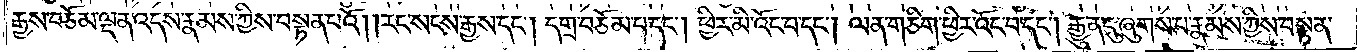རྒྱས་བཅོམ་ལྡན་འདས་རྣམས་ཀྱིས་བསྟན་པའོ། །རང་སངས་རྒྱས་དང༌། དགྲ་བཅོམ་པ་དང༌། ཕྱིར་མི་འོང་བ་དང༌། ལན་གཅིག་ཕྱིར་འོང་བ་དང༌། རྒྱུན་དུ་ཞུགས་པ་རྣམས་ཀྱིས་བསྟན་
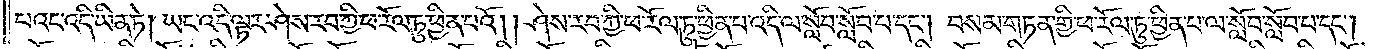པའང་འདི་ཡིན་ཏེ། ཡང་འདི་ལྟར་ཤེས་རབ་ཀྱི་ཕ་རོལ་ཏུ་ཕྱིན་པའོ། །ཤེས་རབ་ཀྱི་ཕ་རོལ་ཏུ་ཕྱིན་པ་འདི་ལ་སློབ་སློབ་པ་དང༌། བསམ་གཏན་གྱི་ཕ་རོལ་ཏུ་ཕྱིན་པ་ལ་སློབ་སློབ་པ་དང༌།
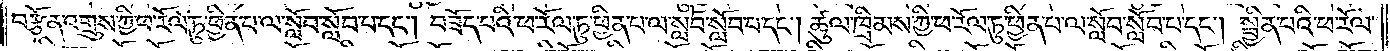བརྩོན་འགྲུས་ཀྱི་ཕ་རོལ་ཏུ་ཕྱིན་པ་ལ་སློབ་སློབ་པ་དང༌། བཟོད་པའི་ཕ་རོལ་ཏུ་ཕྱིན་པ་ལ་སློབ་སློབ་པ་དང༌། ཚུལ་ཁྲིམས་ཀྱི་ཕ་རོལ་ཏུ་ཕྱིན་པ་ལ་སློབ་སློབ་པ་དང༌། སྦྱིན་པའི་ཕ་རོལ་
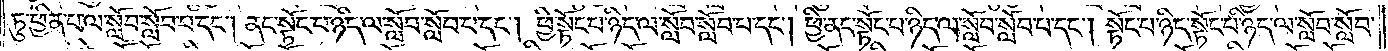ཏུ་ཕྱིན་པ་ལ་སློབ་སློབ་པ་དང༌། ནང་སྟོང་པ་ཉིད་ལ་སློབ་སློབ་པ་དང༌། ཕྱི་སྟོང་པ་ཉིད་ལ་སློབ་སློབ་པ་དང༌། ཕྱི་ནང་སྟོང་པ་ཉིད་ལ་སློབ་སློབ་པ་དང༌། སྟོང་པ་ཉིད་སྟོང་པ་ཉིད་ལ་སློབ་སློབ་
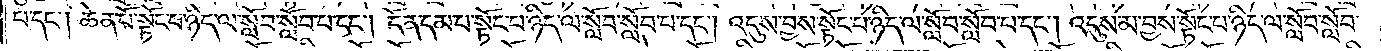པ་དང༌། ཆེན་པོ་སྟོང་པ་ཉིད་ལ་སློབ་སློབ་པ་དང༌། དོན་དམ་པ་སྟོང་པ་ཉིད་ལ་སློབ་སློབ་པ་དང༌། འདུས་བྱས་སྟོང་པ་ཉིད་ལ་སློབ་སློབ་པ་དང༌། འདུས་མ་བྱས་སྟོང་པ་ཉིད་ལ་སློབ་སློབ་
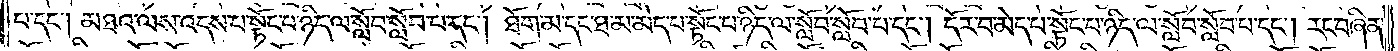པ་དང༌། མཐའ་ལས་འདས་པ་སྟོང་པ་ཉིད་ལ་སློབ་སློབ་པ་དང༌། ཐོག་མ་དང་ཐ་མ་མེད་པ་སྟོང་པ་ཉིད་ལ་སློབ་སློབ་པ་དང༌། དོར་བ་མེད་པ་སྟོང་པ་ཉིད་ལ་སློབ་སློབ་པ་དང༌། རང་བཞིན་
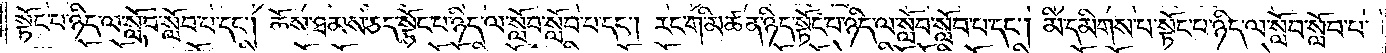སྟོང་པ་ཉིད་ལ་སློབ་སློབ་པ་དང༌། ཆོས་ཐམས་ཅད་སྟོང་པ་ཉིད་ལ་སློབ་སློབ་པ་དང༌། རང་གི་མཚན་ཉིད་སྟོང་པ་ཉིད་ལ་སློབ་སློབ་པ་དང༌། མི་དམིགས་པ་སྟོང་པ་ཉིད་ལ་སློབ་སློབ་པ་
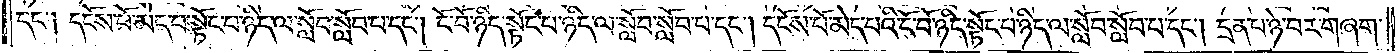དང༌། དངོས་པོ་མེད་པ་སྟོང་པ་ཉིད་ལ་སློབ་སློབ་པ་དང༌། ངོ་བོ་ཉིད་སྟོང་པ་ཉིད་ལ་སློབ་སློབ་པ་དང༌། དངོས་པོ་མེད་པའི་ངོ་བོ་ཉིད་སྟོང་པ་ཉིད་ལ་སློབ་སློབ་པ་དང༌། དྲན་པ་ཉེ་བར་གཞག་
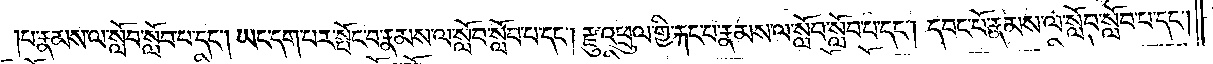པ་རྣམས་ལ་སློབ་སློབ་པ་དང༌། ཡང་དག་པར་སྤོང་བ་རྣམས་ལ་སློབ་སློབ་པ་དང༌། རྫུ་འཕྲུལ་གྱི་རྐང་པ་རྣམས་ལ་སློབ་སློབ་པ་དང༌། དབང་པོ་རྣམས་ལ་སློབ་སློབ་པ་དང༌།
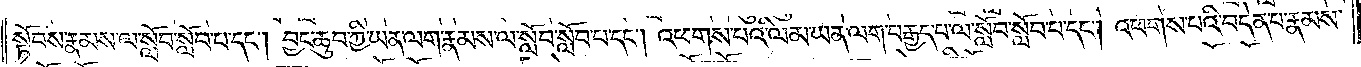སྟོབས་རྣམས་ལ་སློབ་སློབ་པ་དང༌། བྱང་ཆུབ་ཀྱི་ཡན་ལག་རྣམས་ལ་སློབ་སློབ་པ་དང༌། འཕགས་པའི་ལམ་ཡན་ལག་བརྒྱད་པ་ལ་སློབ་སློབ་པ་དང༌། འཕགས་པའི་བདེན་པ་རྣམས་
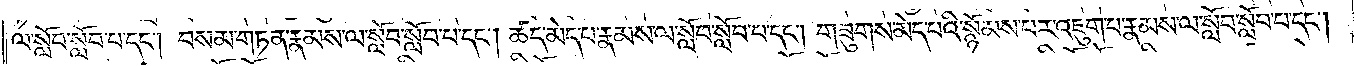ལ་སློབ་སློབ་པ་དང༌། བསམ་གཏན་རྣམས་ལ་སློབ་སློབ་པ་དང༌། ཚད་མེད་པ་རྣམས་ལ་སློབ་སློབ་པ་དང༌། གཟུགས་མེད་པའི་སྙོམས་པར་འཇུག་པ་རྣམས་ལ་སློབ་སློབ་པ་དང༌།
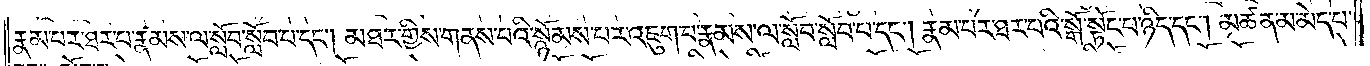རྣམ་པར་ཐར་པ་རྣམས་ལ་སློབ་སློབ་པ་དང༌། མཐར་གྱིས་གནས་པའི་སྙོམས་པར་འཇུག་པ་རྣམས་ལ་སློབ་སློབ་པ་དང༌། རྣམ་པར་ཐར་པའི་སྒོ་སྟོང་པ་ཉིད་དང༌། མཚན་མ་མེད་པ་
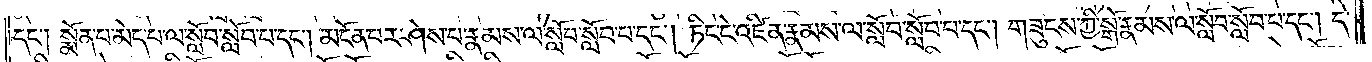དང༌། སྨོན་པ་མེད་པ་ལ་སློབ་སློབ་པ་དང༌། མངོན་པར་ཤེས་པ་རྣམས་ལ་སློབ་སློབ་པ་དང༌། ཏིང་ངེ་འཛིན་རྣམས་ལ་སློབ་སློབ་པ་དང༌། གཟུངས་ཀྱི་སྒོ་རྣམས་ལ་སློབ་སློབ་པ་དང༌། དེ་
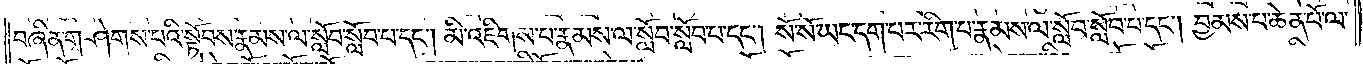བཞིན་གཤེགས་པའི་སྟོབས་རྣམས་ལ་སློབ་སློབ་པ་དང༌། མི་འཇིགས་པ་རྣམས་ལ་སློབ་སློབ་པ་དང༌། སོ་སོ་ཡང་དག་པར་རིག་པ་རྣམས་ལ་སློབ་སློབ་པ་དང༌། བྱམས་པ་ཆེན་པོ་ལ་
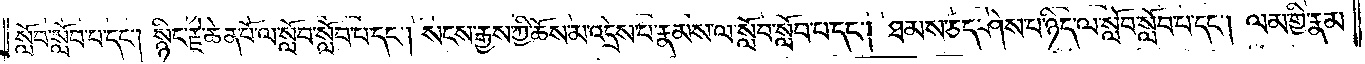སློབ་སློབ་པ་དང༌། སྙིང་རྗེ་ཆེན་པོ་ལ་སློབ་སློབ་པ་དང༌། སངས་རྒྱས་ཀྱི་ཆོས་མ་འདྲེས་པ་རྣམས་ལ་སློབ་སློབ་པ་དང༌། ཐམས་ཅད་ཤེས་པ་ཉིད་ལ་སློབ་སློབ་པ་དང༌། ལམ་གྱི་རྣམ་
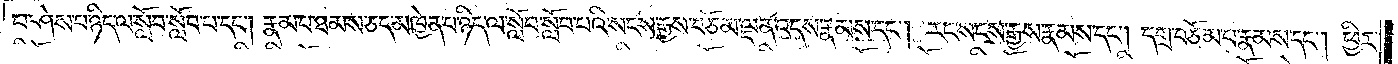པ་ཤེས་པ་ཉིད་ལ་སློབ་སློབ་པ་དང༌། རྣམ་པ་ཐམས་ཅད་མཁྱེན་པ་ཉིད་ལ་སློབ་སློབ་པའི་སངས་རྒྱས་བཅོམ་ལྡན་འདས་རྣམས་དང༌། རང་སངས་རྒྱས་རྣམས་དང༌། དགྲ་བཅོམ་པ་རྣམས་དང༌། ཕྱིར་
